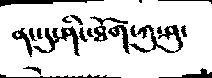ནང་དུ་ཤིང་ཐོག་ཀུ་ཤུ་
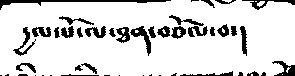དྱལ་པོ་ལ་ཐན་བཅོལ་བ་།
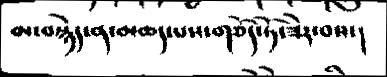མ་བསྙེད་ན་མཆད་པས་གཅོད་ཏོ་ཟེར་བས་།
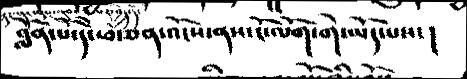བློན་པོ་དེ་ཕ་ཅན་འོངས་ནས་ངོ་ལོག་གེ་ཡོད་པས་།
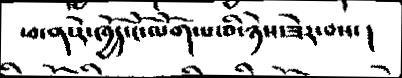ཕ་ན་རེ་ཁྱོད་ངོ་ལོག་པ་ཅི་ཉེས་ཟེར་བས་།
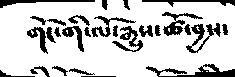གོང་གི་ལོ་རྒྱུས་ཚོ་བྱས་
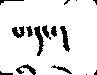པ་དང་།
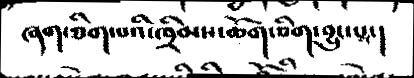ཞག་ཅིག་པའི་ཁྲིམས་ཆོག་ཅིག་བྱུང་པས་།
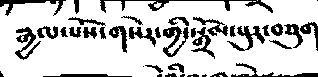རྒྱལ་པོས་གསེར་གྱི་སྒྲོལ་པུར་བཅུག
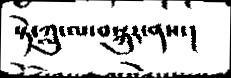སྟེ་ཀླུ་ལ་བསྐུར་ནས་།
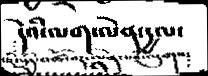དེའི་ལག་ལེན་དྱལ་
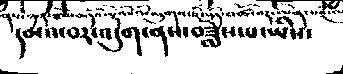དམའ་བར་འདུག་ནས་བཟླས་པ་ཡིས་
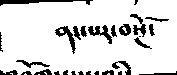ནང་པར་བསྔོ་
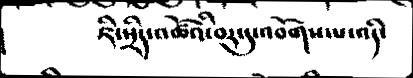ཇི་སྲིད་འཚོའི་བར་དུ་འབོགས་པ་འདི་
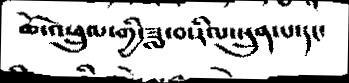ཆོ་འཕྲུལ་གྱི་ཟླ་བ་རིལ་སྲུན་པ་དང་
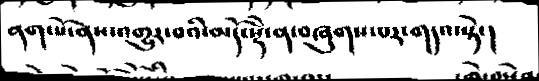ནག་པོ་ནས་འགྱུར་བའི་མདོ་སྡེ་ན་བཞུགས་པར་གདའ་སྟེ་།
